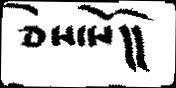ཅེས་སོ།།
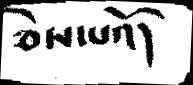ཅེས་པའོ།
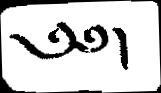༄༅།
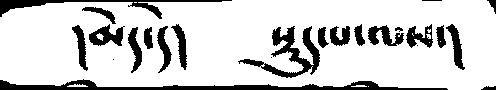།མེད་དེ།    སྡུད་པ་ལས་།
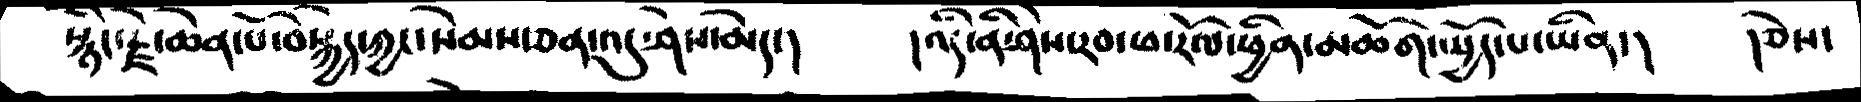སྙིང་རྗེ་ཆེན་པོ་བསྐྱེད་ཀྱང་སེམས་ཅན་འདུ་ཤེས་མེད་།    །འདི་ནི་ཤེས་རབ་ཕ་རོལ་མཆོག་སྤྱོད་པ་ཡིན་།   །ཅེས་
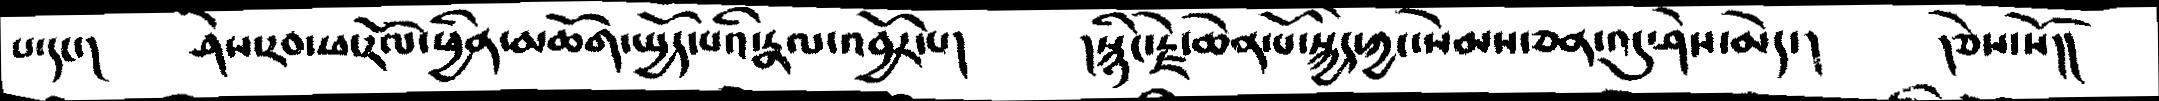པ་དང་།   ཤེས་རབ་ཕ་རོལ་ཕྱིན་མཆོག་སྤྱོད་པའི་རྣལ་འབྱོར་པ།       །སྙིང་རྗེ་ཆེན་པོ་སྐྱེད་ཀྱང་སེམས་ཅན་འདུ་ཤེས་མེད་།    །ཅེས་སོ།།
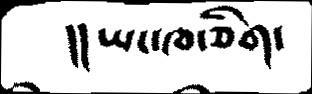།།ཡང་ཁ་ཅིག་
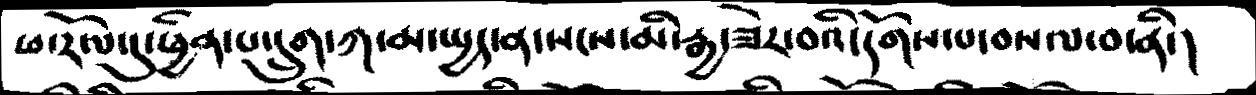ཕ་རོལ་དུ་ཕྱིན་པ་དྲུག་ཀ་མ་སྤྱད་ན་སངས་མི་རྒྱ་ཟེར་བའི་དོགས་པ་བསལ་བ་ནི་།
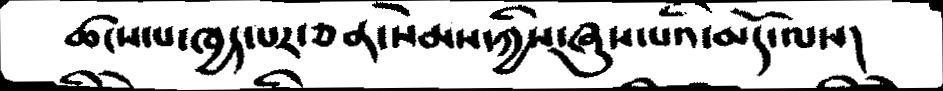ཚངས་པ་ཁྱད་པར་ཅན་སེམས་ཀྱིས་ཞུས་པའི་མདོ་ལས།
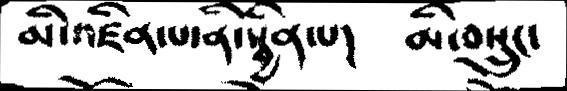མི་འཛིན་པ་ནི་སྦྱིན་པ།    མི་བསྲུང་
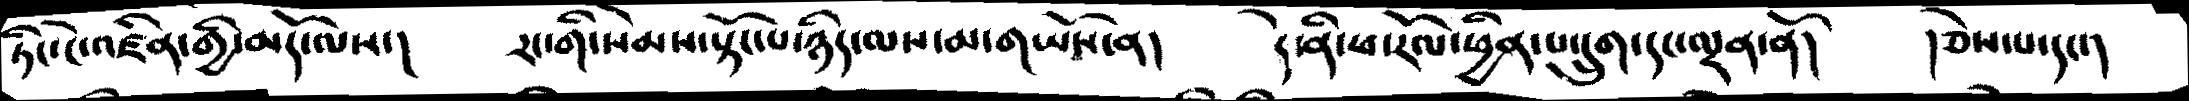ཏིང་ངེ་འཛིན་གྱི་མདོ་ལས་།     རང་གི་སེམས་སྟོང་པ་ཉིད་ལས་མ་གཡོས་ན།     དེ་ནི་ཕ་རོལ་ཕྱིན་པ་དྲུག་དང་ལྡན་ནོ།     །ཅེས་པ་དང་།
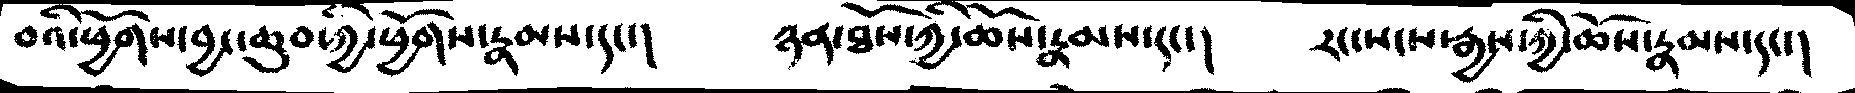བའི་ཕྱོགས་བྱང་ཆུབ་ཀྱི་ཕྱོགས་རྣམས་དང་།   ཉན་ཐོས་ཀྱི་ཆོས་རྣམས་དང་།      རང་སངས་རྒྱས་ཀྱི་ཆོས་རྣམས་དང་།
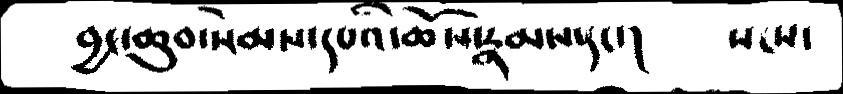བྱང་ཆུབ་སེམས་དཔའི་ཆོས་རྣམས་དང་།    སངས་
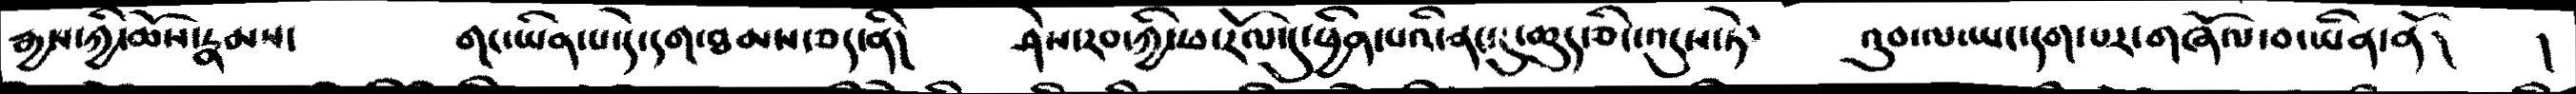རྒྱས་ཀྱི་ཆོས་རྣམས་     གང་ཡིན་པ་དེ་དག་ཐམས་ཅད་ནི།    ཤེས་རབ་ཀྱི་ཕ་རོལ་དུ་ཕྱིན་པའི་ནང་དུ་ཆུད་ཅིང་འདུས་ཏེ་    འུབ་ལ་ཡང་དག་པར་གཞོལ་བ་ཡིན་ནོ།     །
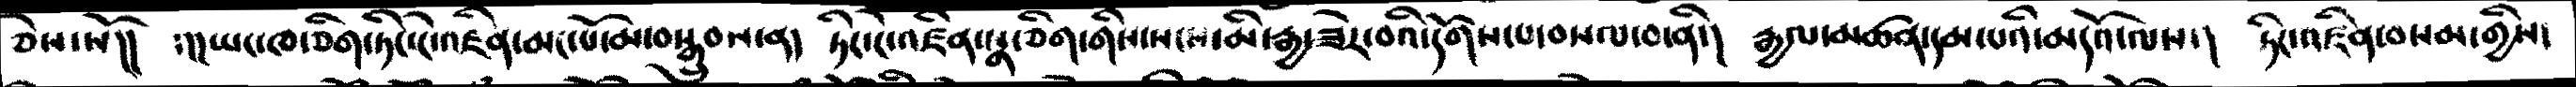ཅེས་སོ།།   ༴།།ཡང་ཁ་ཅིག་ཏིང་ངེ་འཛིན་མང་པོ་མ་བསྒྲུབས་ན།    ཏིང་ངེ་འཛིན་སྣ་ཅིག་གིས་སངས་མི་རྒྱ་ཟེར་བའི་དོགས་པ་བསལ་བ་ནི་།   རྒྱལ་མཚན་དམ་པའི་མདོ་ལས་།   ཏིང་འཛིན་བསམ་གྱིས་
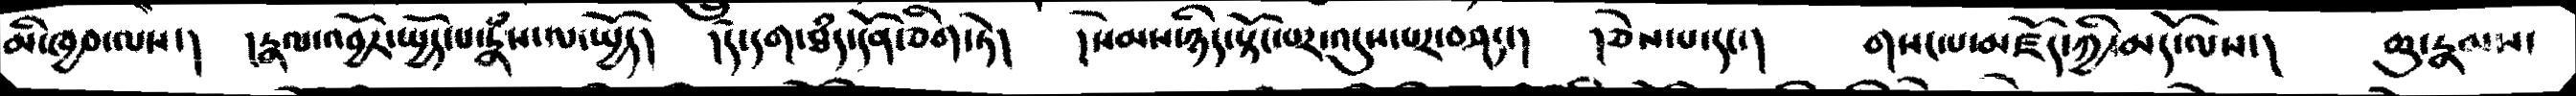མི་ཁྱབ་ལས་།   །རྣལ་འབྱོར་སྤྱོད་པ་རྣཾས་ལ་སྤྱོད།    །དེ་དག་ཐཾད་དོན་ཅིག་ཏེ།     །སེམས་ཉིད་སྟོང་པར་བཤད་།    །ཅེས་པ་དང་།   གསང་བ་མཛོད་ཀྱི་མདོ་ལས་།    ཆུ་རྣམས་
